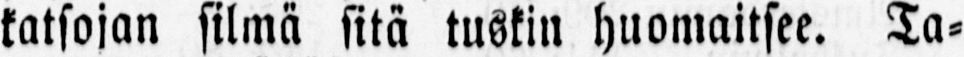katsojan silmä sitä tuskin huomaitsee. Ta-
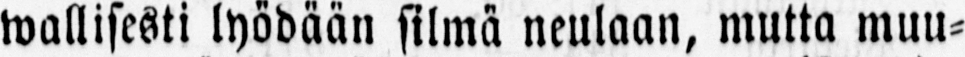wallisesti lyödään silmä neulaan, mutta muu-
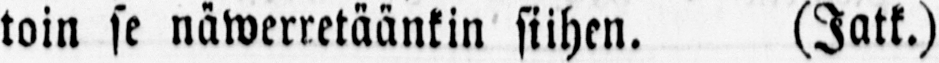toin se näwerretäänkin siihen. (Jatk.)
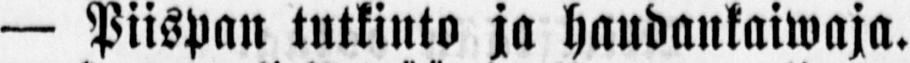— Piispan tutkinto ja haudankaiwaja.
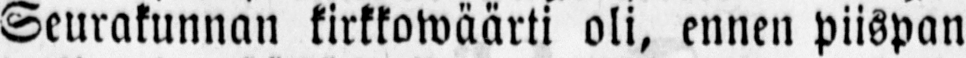Seurakunnan kirkkowäärti oli, ennen piispan
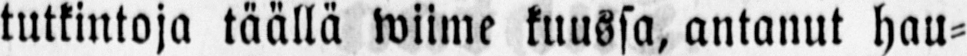tutkintoja täällä wiime kuussa, antanut hau-
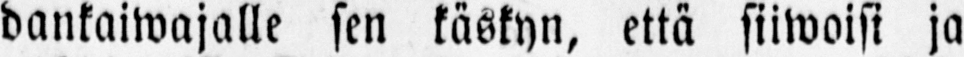dankawajalle sen käskyn, että siiwoisi ja
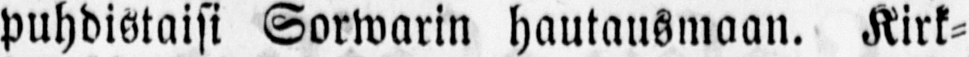puhdistaisi Sorwarin hautausmaan. Kirk-
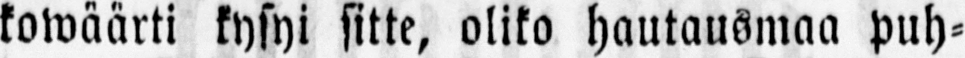kowäärti kysyi sitte, oliko hautausmaa puh-
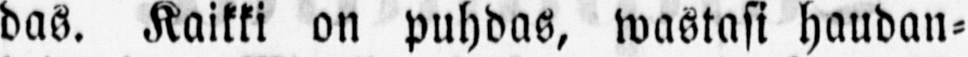das. Kaikki on puhdas, wastasi haudan-
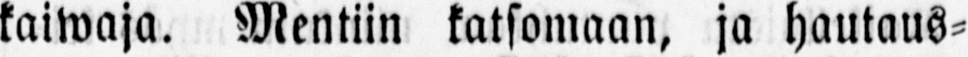kaiwaja. Mentiin katsomaan, ja hautaus-
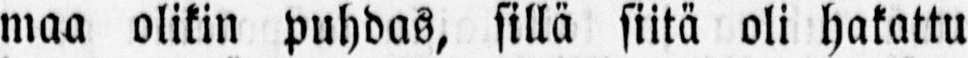maa olikin puhdas, sillä siitä oli hakattu
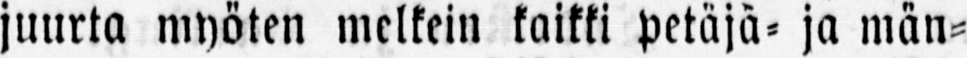juurta myöten melkein kaikki petäjä- ja män-
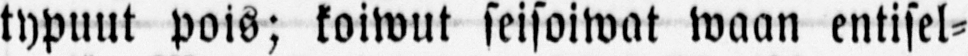typuut pois; koiwut seisoiwat waan entisel-
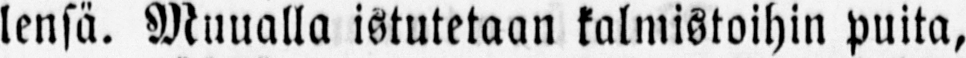lensä. Muualla istutetaan kalmistoihin puita,
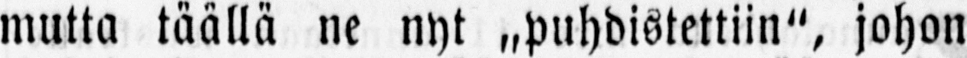mutta täällä ne nyt „puhdistettiin", johon
